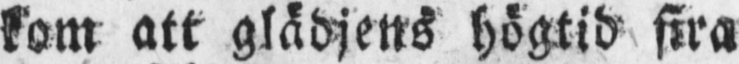kom att glädjens högtid fira
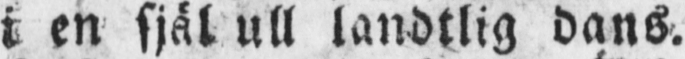i en själ ull landtlig dans.
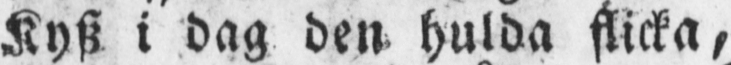Kysz i dag den hulda flicka,
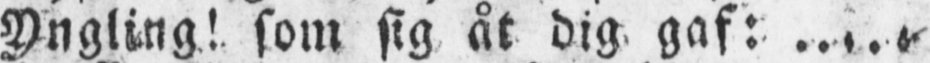Yngling! som sig åt dig gaf: .....
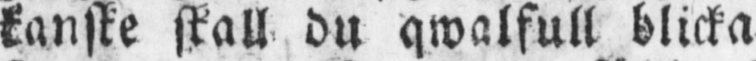kanske skall du qwalfull blicka
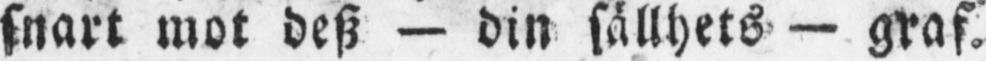snart mot desz — din sällhets — graf.
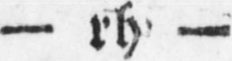- rh -
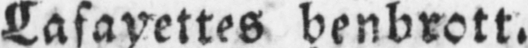Lafayettes benbrott.
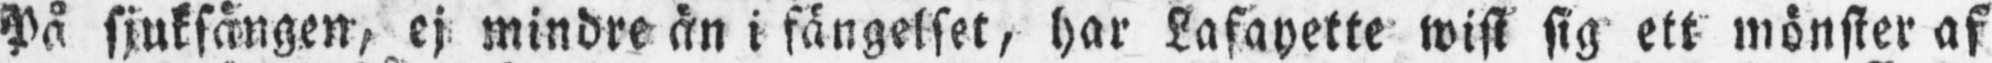På sjuksängen, ej mindre än i fängelset, har Lafayette wist sig ett mönster af
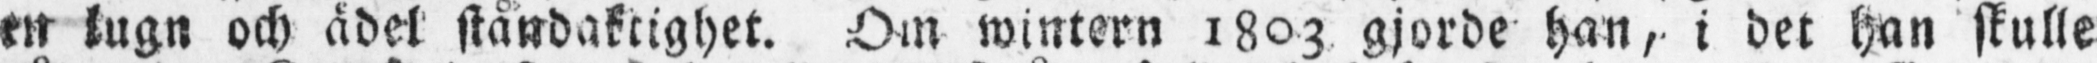en lugn och ädel ståndaktighet. Om wintern 1803 gjorde han, i det han skulle
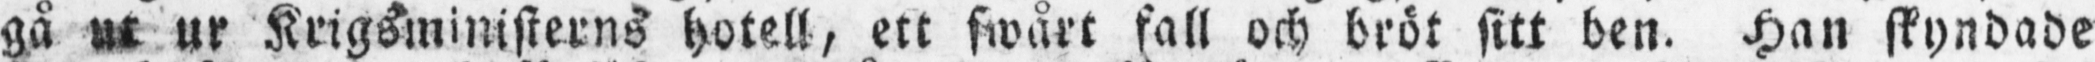gå ut ur Krigsministerns hotell, ett swårt fall och bröt sitt ben. Han skyndade
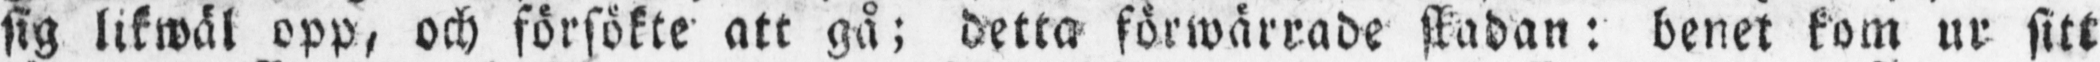sig likwäl opp, och försökte att gå; detta förwärrade skadan: benet kom ur sitt
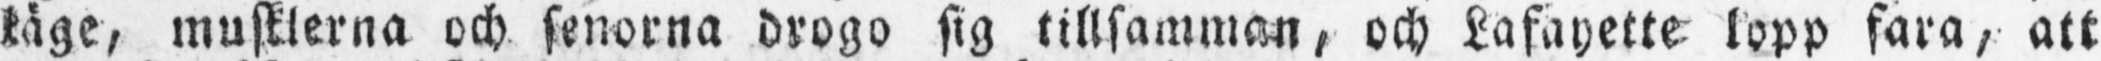käge, musklerna och fenorna drogo sig tillsamman, och Lafayette lopp fara, att
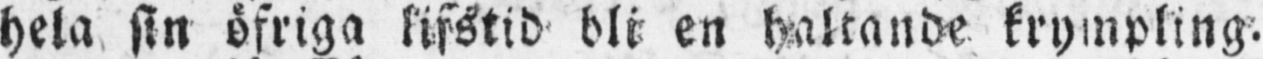hela sin öfriga lifstid bli en haltande krympling.
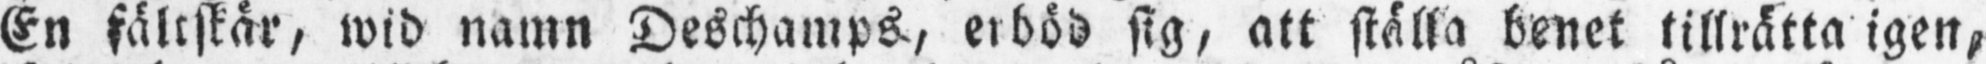En fältskär, wid namn Deschamps, erböd sig, att ställa benet tillrätta igen,
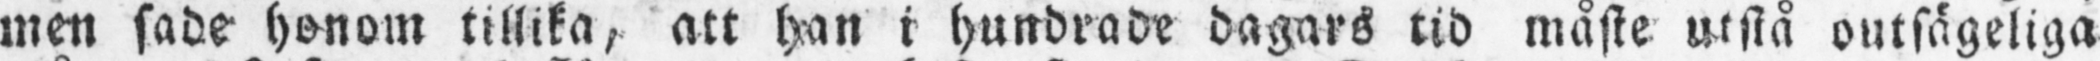men sade honom tillika, att han i hundrade dagars tid måste utstå outsägeliga
